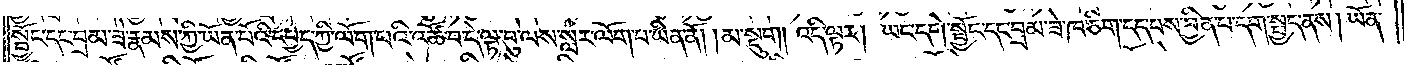སྦྱོང་དང་བྲམ་ཟེ་རྣམས་ཀྱི་ཡོན་པོའི་དཔྱད་ཀྱི་ལོག་པའི་འཚོ་བ་དེ་ལྟ་བུ་ལས་སླར་ལོག་པ་ཡིན་ནོ། །མ་སྡུག །འདི་ལྟར། ཡང་དགེ་སྦྱོང་དང་བྲམ་ཟེ་ཁ་ཅིག་དད་པས་བྱིན་པ་དག་སྤྱད་ནས། ཡོན་
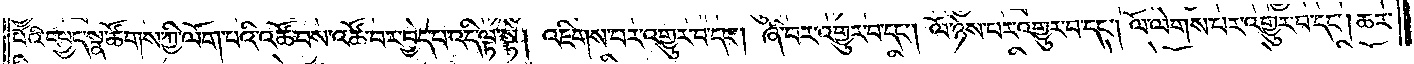པོའི་དཔྱད་སྣ་ཚོགས་ཀྱི་ལོག་པའི་འཚོ་བས་འཚོ་བར་བྱེད་པ་འདི་ལྟ་སྟེ། འཇིགས་པར་འགྱུར་བ་དང༌། ཞི་བར་འགྱུར་བ་དང༌། ལོ་ཉེས་པར་འགྱུར་བ་དང༌། ལོ་ལེགས་པར་འགྱུར་བ་དང༌། ཆར་
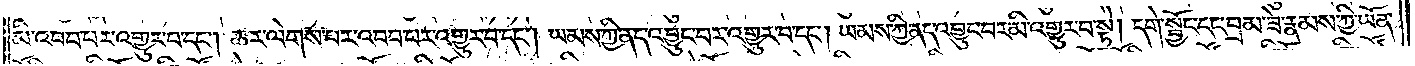མི་འབབ་པར་འགྱུར་བ་དང༌། ཆར་ལེགས་པར་འབབ་པར་འགྱུར་བ་དང༌། ཡམས་ཀྱི་ནད་འབྱུང་བར་འགྱུར་བ་དང༌། ཡམས་ཀྱི་ནད་འབྱུང་བར་མི་འགྱུར་བ་སྟེ། དགེ་སྦྱོང་དང་བྲམ་ཟེ་རྣམས་ཀྱི་ཡོན་
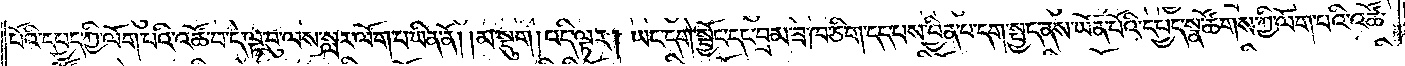པོའི་དཔྱད་ཀྱི་ལོག་པའི་འཚོ་བ་དེ་ལྟ་བུ་ལས་སླར་ལོག་པ་ཡིན་ནོ། །མ་སྡུག །འདི་ལྟར། ཡང་དགེ་སྦྱོང་དང་བྲམ་ཟེ་ཁ་ཅིག་དད་པས་བྱིན་པ་དག་སྤྱད་ནས་ཡོན་པོའི་དཔྱད་སྣ་ཚོགས་ཀྱི་ལོག་པའི་འཚོ་
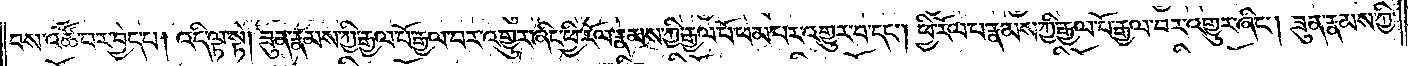བས་འཚོ་བར་བྱེད་པ། འདི་ལྟ་སྟེ། ཟུན་རྣམས་ཀྱི་རྒྱལ་པོ་རྒྱལ་བར་འགྱུར་ཞིང་ཕྱི་རོལ་རྣམས་ཀྱི་རྒྱལ་པོ་ཕམ་པར་འགྱུར་བ་དང༌། ཕྱི་རོལ་པ་རྣམས་ཀྱི་རྒྱལ་པོ་རྒྱལ་བར་འགྱུར་ཞིང༌། ཟུན་རྣམས་ཀྱི་
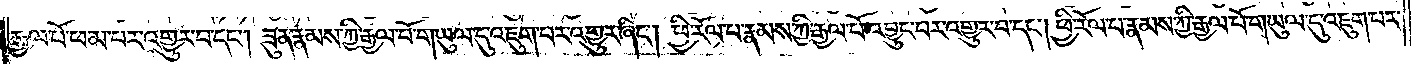རྒྱལ་པོ་ཕམ་པར་འགྱུར་བ་དང༌། ཟུན་རྣམས་ཀྱི་རྒྱལ་པོ་གཡུལ་དུ་འཇུག་པར་འགྱུར་ཞིང༌། ཕྱི་རོལ་པ་རྣམས་ཀྱི་རྒྱལ་པོ་འབྱུང་བར་འགྱུར་བ་དང༌། ཕྱི་རོལ་པ་རྣམས་ཀྱི་རྒྱལ་པོ་གཡུལ་དུ་འཇུག་པར་
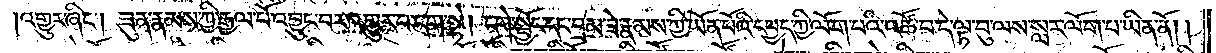འགྱུར་ཞིང༌། ཟུན་རྣམས་ཀྱི་རྒྱལ་པོ་འབྱུང་བར་འགྱུར་བ་དག་སྟེ། དགེ་སྦྱོང་དང་བྲམ་ཟེ་རྣམས་ཀྱི་ཡོན་པོའི་དཔྱད་ཀྱི་ལོག་པའི་འཚོ་བ་དེ་ལྟ་བུ་ལས་སླར་ལོག་པ་ཡིན་ནོ། །
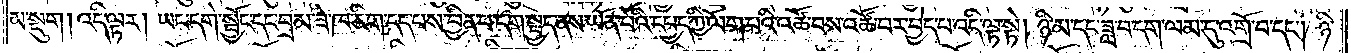མ་སྡུག །འདི་ལྟར། ཡང་དགེ་སྦྱོང་དང་བྲམ་ཟེ་ཁ་ཅིག་དད་པས་བྱིན་པ་དག་སྤྱད་ནས་ཡོན་པོའི་དཔྱད་ཀྱི་ལོག་པའི་འཚོ་བས་འཚོ་བར་བྱེད་པ་འདི་ལྟ་སྟེ། ཉི་མ་དང་ཟླ་བདག་ལམ་དུ་འགྲོ་བ་དང༌། ཉི་
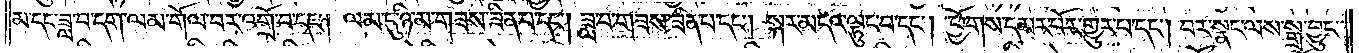མ་དང་ཟླ་བ་དག་ལམ་གོལ་བར་འགྲོ་བ་དང༌། ལམ་དུ་ཉི་མ་གཟས་ཟིན་པ་དང༌། ཟླ་བ་གཟས་ཟིན་པ་དང༌། སྐར་མདའ་ལྟུང་བ་དང༌། ཕྱོགས་དམར་པོར་གྱུར་པ་དང༌། བར་སྣང་ལས་སྒྲ་བྱུང་
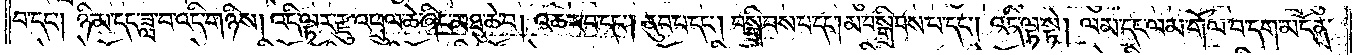བ་དང༌། ཉི་མ་དང་ཟླ་བ་འདི་གཉིས། འདི་ལྟར་རྫུ་འཕྲུལ་ཆེ་ཞིང་མཐུ་ཆེ་བ། འཆར་བ་དང༌། ནུབ་པ་དང༌། བསྒྲིབས་པ་དང༌། མ་བསྒྲིབས་པ་དང༌། འདི་ལྟ་སྟེ། ལམ་དང་ལམ་གོལ་བ་དག་མངོན་
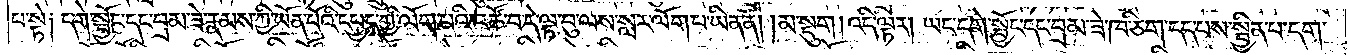པ་སྟེ༑ དགེ་སྦྱོང་དང་བྲམ་ཟེ་རྣམས་ཀྱི་ཡོན་པོའི་དཔྱད་ཀྱི་ལོག་པའི་འཚོ་བ་དེ་ལྟ་བུ་ལས་སླར་ལོག་པ་ཡིན་ནོ། །མ་སྡུག །འདི་ལྟར། ཡང་དགེ་སྦྱོང་དང་བྲམ་ཟེ་ཁ་ཅིག་དད་པས་སྦྱིན་པ་དག་
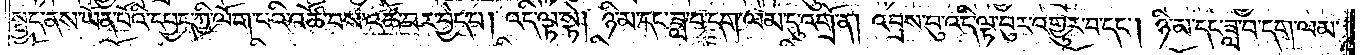སྤྱད་ནས་ཡོན་པོའི་དཔྱད་ཀྱི་ལོག་པའི་འཚོ་བས་འཚོ་བར་བྱེད་པ། འདི་ལྟ་སྟེ། ཉི་མ་དང་ཟླ་བ་དག་ལམ་དུ་འགྲོ་ན། འབྲས་བུ་འདི་ལྟ་བུར་འགྱུར་བ་དང༌། ཉི་མ་དང་ཟླ་བ་དག་ལམ་
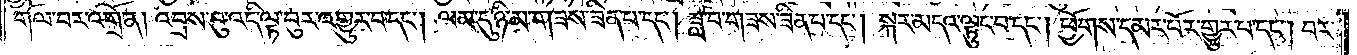གོལ་བར་འགྲོ་ན། འབྲས་བུ་འདི་ལྟ་བུར་འགྱུར་བ་དང༌། ལམ་དུ་ཉི་མ་གཟས་ཟིན་པ་དང༌། ཟླ་བ་གཟས་ཟིན་པ་དང༌། སྐར་མདའ་ལྟུང་བ་དང༌། ཕྱོགས་དམར་པོར་གྱུར་བ་དང༌། བར་
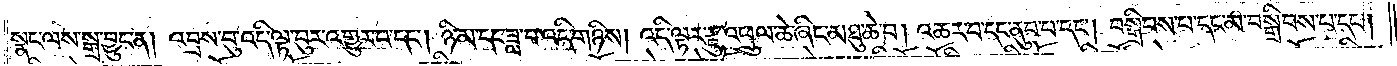སྣང་ལས་སྒྲ་བྱུང་ན། འབྲས་བུ་འདི་ལྟ་བུར་འགྱུར་བ་དང༌། ཉི་མ་དང་ཟླ་བ་འདི་གཉིས། འདི་ལྟར་རྫུ་འཕྲུལ་ཆེ་ཞིང་མཐུ་ཆེ་བ། འཆར་བ་དང་ནུབ་པ་དང༌། བསྒྲིབས་པ་དང་མ་བསྒྲིབས་པ་དང༌།
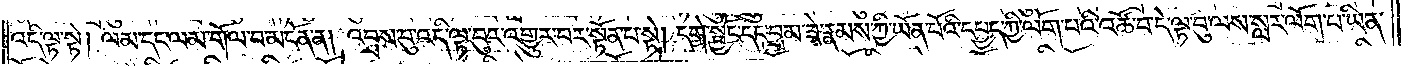འདི་ལྟ་སྟེ། ལམ་དང་ལམ་གོལ་བ་མངོན་ན། འབྲས་བུ་འདི་ལྟ་བུར་འགྱུར་བར་སྟོན་པ་སྟེ། དགེ་སྦྱོང་དང་བྲམ་ཟེ་རྣམས་ཀྱི་ཡོན་པོའི་དཔྱད་ཀྱི་ལོག་པའི་འཚོ་བ་དེ་ལྟ་བུ་ལས་སླར་ལོག་པ་ཡིན་
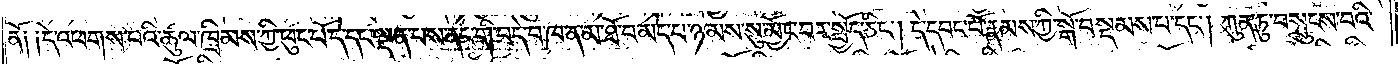ནོ ༑ ༑དེ་འཕགས་པའི་ཚུལ་ཁྲིམས་ཀྱི་ཕུང་པོ་དེ་དང་ལྡན་པས་ནང་གི་བདེ་བ་ཁ་ན་མ་ཐོ་བ་མེད་པ་ཉམས་སུ་མྱོང་བར་སྤྱོད་ཅིང༌། དེ་དབང་པོ་རྣམས་ཀྱི་སྒོ་བསྡམས་པ་དང༌། ཀུན་ཏུ་བསྲུངས་པའི་
